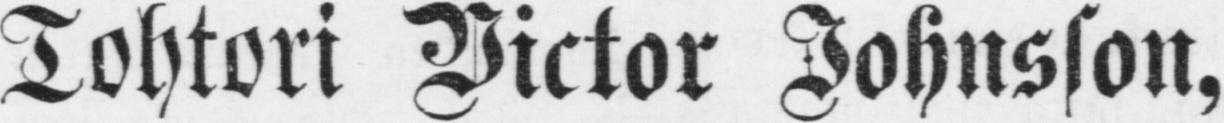Tohtori Victor Johnsson,
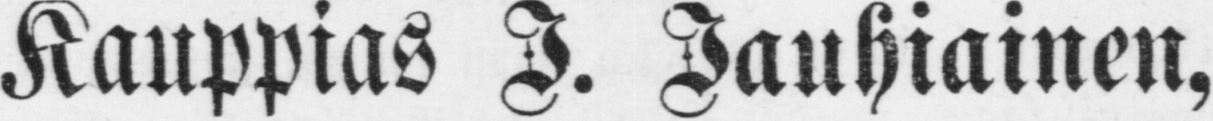Kauppias I. Jauhiainen,
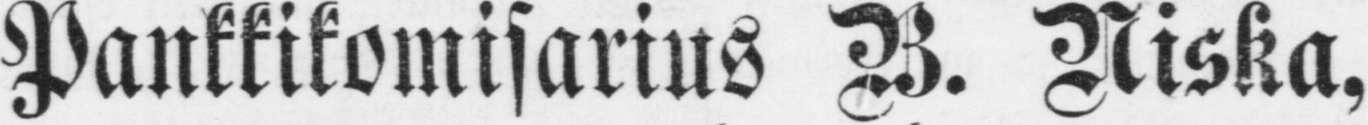Pankkikomisarius B. Niska,
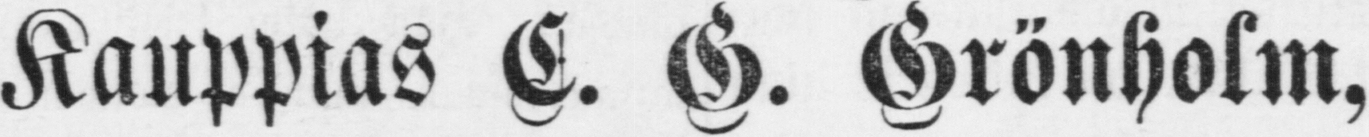Kauppias C. G. Grönholm,
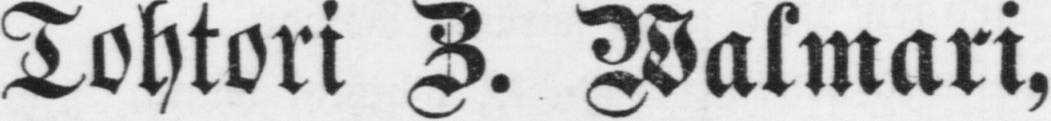Tohtori Z. Wasmari,
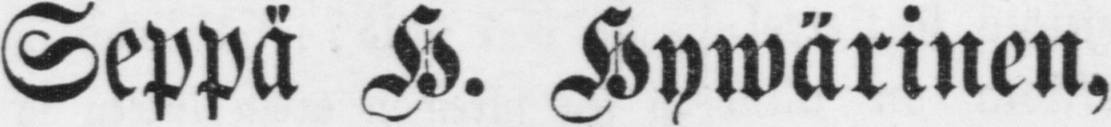Seppä H. Hywärinen,
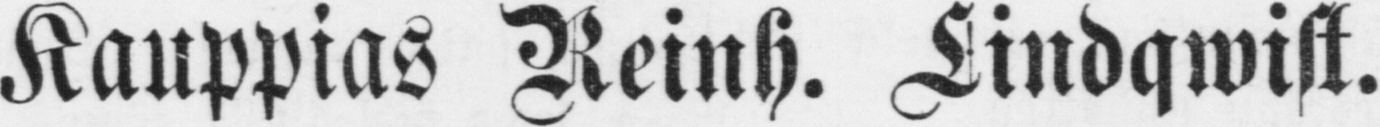Kauppias Reinh. Lindqwist.
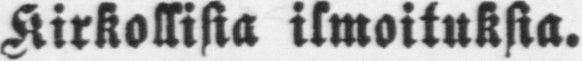Kirkollisia ilmoituksia.
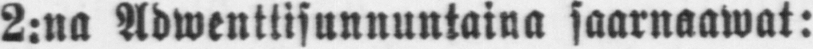2:na Adwenttisunnuntaina saarnaawat:
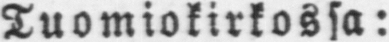Tuomiokirkossa:
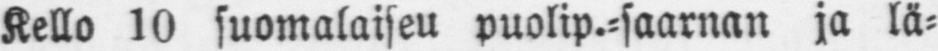Kello 10 suomalaiseu puolip.-saarnan ja lä-
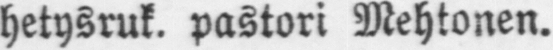hetysruk. pastori Mehtonen.
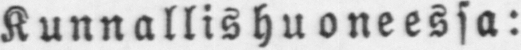Kunnallishuoneessa:
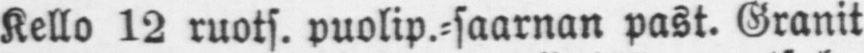Kello 12 ruots. puolip.-saarnan past. Granit
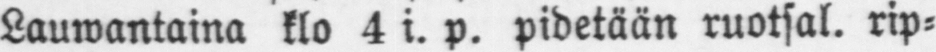Lauwantaina klo 4 i. p. pidetään ruotsal. rip-
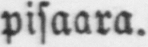pisaara.
